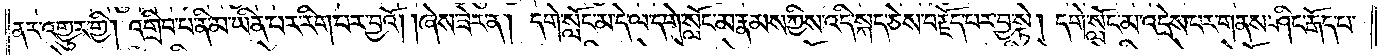ནར་འགྱུར་གྱི། འགྲིབ་པ་ནི་མ་ཡིན་པར་རིག་པར་བྱའོ། །ཞེས་ཟེར་ན། དགེ་སློང་མ་དེ་ལ་དགེ་སློང་མ་རྣམས་ཀྱིས་འདི་སྐད་ཅེས་བརྗོད་པར་བྱ་སྟེ། དགེ་སློང་མ་འདྲེས་པར་གནས་ཤིང་རྒོད་པ་
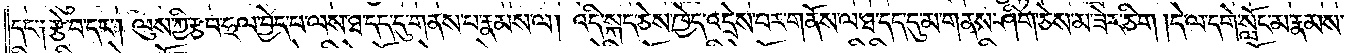དང་༑ རྩེ་བ་དང༌། ལུས་ཀྱི་རྩབ་ཧྲལ་བྱེད་པ་ལས་ཐ་དད་དུ་གནས་པ་རྣམས་ལ། འདི་སྐད་ཅེས་ཁྱེད་འདྲེས་པར་གནོས་ལ་ཐ་དད་དུ་མ་གནས་ཤིག་ཅེས་མ་ཟེར་ཅིག །དེ་ལ་དགེ་སློང་མ་རྣམས་
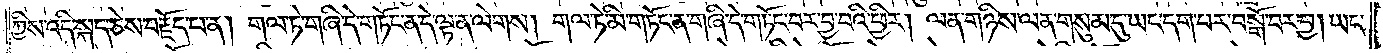ཀྱིས་འདི་སྐད་ཅེས་བརྗོད་པ་ན། གལ་ཏེ་གཞི་དེ་གཏོང་ན་དེ་ལྟ་ན་ལེགས། གལ་ཏེ་མི་གཏོང་ན་གཞི་དེ་གཏོང་བར་བྱ་བའི་ཕྱིར། ལན་གཉིས་ལན་གསུམ་དུ་ཡང་དག་པར་བསྒོ་བར་བྱ། ཡང་
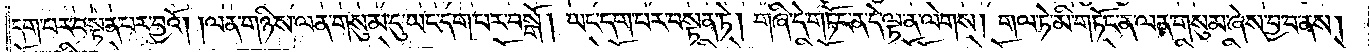དག་པར་བསྟན་པར་བྱའོ། །ལན་གཉིས་ལན་གསུམ་དུ་ཡང་དག་པར་བསྒོ། ཡང་དག་པར་བསྟན་ཏེ། གཞི་དེ་གཏོང་ན་དེ་ལྟ་ན་ལེགས། གལ་ཏེ་མི་གཏོང་ན་ལན་གསུམ་ཞེས་བྱ་བ་ནས།
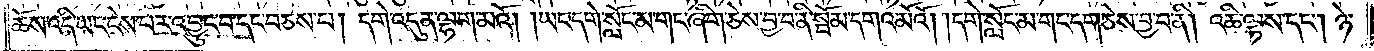ཆོས་འདི་ཡང་ངེས་པར་འབྱུང་བ་དང་བཅས་པ། དགེ་འདུན་ལྷག་མའོ། །ཡང་དགེ་སློང་མ་གང་ཞིག་ཅེས་བྱ་བ་ནི་སྡོམ་དགའ་མོའོ། །དགེ་སློང་མ་གང་དག་ཅེས་བྱ་བ་ནི། འཆི་ལྟས་དང༌། ཉེ་
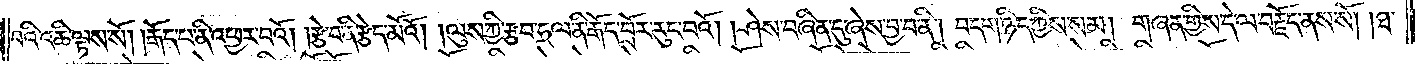བའི་འཆི་ལྟས་སོ། །རྒོད་པ་ནི་འཕྱར་བའོ། །རྩེ་བ་ནི་རྩེད་མོའོ། །ལུས་ཀྱི་རྩབ་ཧྲལ་ནི་རྒོད་བྲོར་རུང་བའོ། །ཤེས་བཞིན་དུ་ཞེས་བྱ་བ་ནི། བདག་ཉིད་ཀྱིས་སམ། གཞན་གྱིས་དེ་ལ་བརྗོད་ནས་སོ། །ཐ་
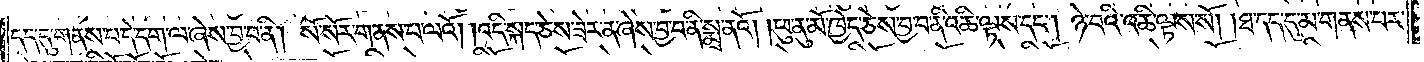དད་དུ་གནས་པ་དེ་དག་ལ་ཞེས་བྱ་བ་ནི། སོ་སོར་གནས་པ་ལའོ། །འདི་སྐད་ཅེས་ཟེར་ན་ཞེས་བྱ་བ་ནི་སྨྲ་ནའོ། །ཕུ་ནུ་མོ་ཁྱེད་ཅེས་བྱ་བ་ནི་འཆི་ལྟས་དང༌། ཉེ་བའི་འཆི་ལྟས་སོ། །ཐ་དད་དུ་མ་གནས་པར་
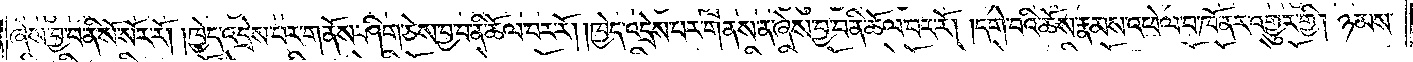ཞེས་བྱ་བ་ནི་སོ་སོར་རོ། །ཁྱེད་འདྲེས་པར་གནོས་ཤིག་ཅེས་བྱ་བ་ནི་ཆོལ་བར་རོ། །ཁྱེད་འདྲེས་པར་གནས་ན་ཞེས་བྱ་བ་ནི་ཆོལ་བར་རོ། །དགེ་བའི་ཆོས་རྣམས་འཕེལ་བ་ཁོ་ནར་འགྱུར་གྱི། ཉམས་
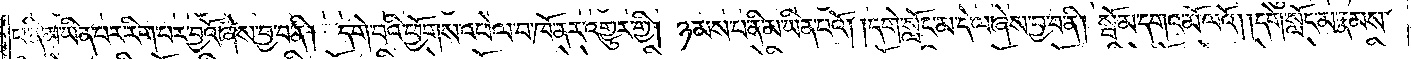པ་ནི་མ་ཡིན་པར་རིག་པར་བྱའོ་ཞེས་བྱ་བ་ནི། དགེ་བའི་ཕྱོགས་འཕེལ་བ་ཁོ་ནར་འགྱུར་གྱི། ཉམས་པ་ནི་མ་ཡིན་པའོ། །དགེ་སློང་མ་དེ་ལ་ཞེས་བྱ་བ་ནི། སྦོམ་དགའ་མོ་ལའོ། །དགེ་སློང་མ་རྣམས་
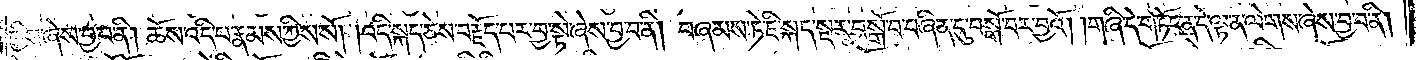ཀྱིས་ཞེས་བྱ་བ་ནི། ཆོས་འདི་པ་རྣམས་ཀྱིས་སོ། །འདི་སྐད་ཅེས་བརྗོད་པར་བྱ་སྟེ་ཞེས་བྱ་བ་ནི། བཞམས་ཏེ་ཇི་སྐད་སྔར་བསྒོ་བ་བཞིན་དུ་བསྒོ་བར་བྱའོ། །གཞི་དེ་གཏོང་ན་དེ་ལྟ་ན་ལེགས་ཞེས་བྱ་བ་ནི།
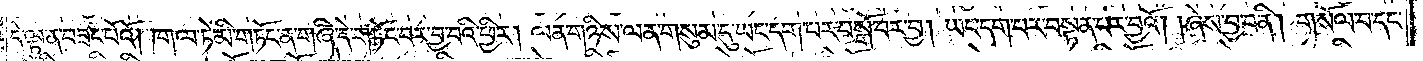དེ་ལྟ་ན་བཟང་པོའོ། །གལ་ཏེ་མི་གཏོང་ན་གཞི་དེ་གཏོང་བར་བྱ་བའི་ཕྱིར། ལན་གཉིས་ལན་གསུམ་དུ་ཡང་དག་པར་བསྒོ་བར་བྱ། ཡང་དག་པར་བསྟན་པར་བྱའོ། །ཞེས་བྱ་བ་ནི། གསོལ་བ་དང་
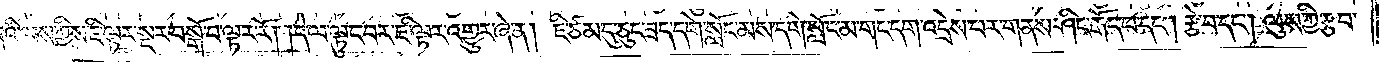བཞིའི་ལས་ཀྱིས་ཇི་ལྟར་སྔར་བསྒོ་བ་ལྟར་རོ། །དེ་ལ་ལྟུང་བར་ཇི་ལྟར་འགྱུར་ཞེ་ན། ཇི་ཙམ་དུ་ཅུང་ཟད་དགེ་སློང་མས་དགེ་སློང་མ་གང་དག་འདྲེས་པར་གནས་ཤིང་རྒོད་པ་དང༌། རྩེ་བ་དང༌། ལུས་ཀྱི་རྩབ་
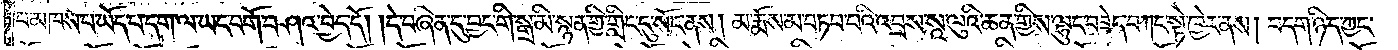པ་མཁས་པ་ཡོད་པ་དག་ལ་ཡང་བགོ་བཤའ་བྱེད་དོ། །དེ་བཞིན་དུ་བྱང་གི་སྒྲ་མི་སྙན་གྱི་གླིང་དུ་སོང་ནས། མ་རྨོས་མ་བཏབ་པའི་འབྲས་སཱ་ལུའི་ཆན་གྱིས་ལྷུང་བཟེད་བཀང་སྟེ་ཁྱེར་ནས། བདག་ཉིད་ཀྱང་
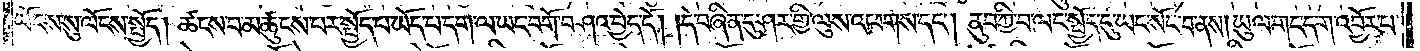ཡོངས་སུ་ལོངས་སྤྱོད། ཚངས་པ་མཚུངས་པར་སྤྱོད་པ་ཡོད་པ་དག་ལ་ཡང་བགོ་བཤའ་བྱེད་དོ། །དེ་བཞིན་དུ་ཤར་གྱི་ལུས་འཕགས་དང༌། ནུབ་ཀྱི་བ་ལང་སྤྱོད་དུ་ཡང་སོང་བ་ནས། ཡུལ་གང་དག་འབྱོར་པ་
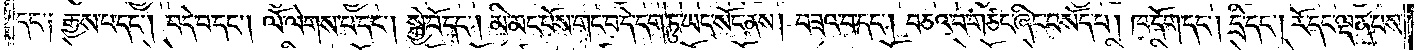དང་༑ རྒྱས་པ་དང༌། བདེ་བ་དང༌། ལོ་ལེགས་པ་དང༌། སྐྱེ་བོ་དང༌། མི་མང་པོས་གང་བ་དེ་དག་ཏུ་ཡང་སོང་ནས། བཟའ་བ་དང༌། བཅའ་བ་གཙང་ཞིང་བསོད་པ། ཁ་དོག་དང༌། དྲི་དང༌། རོ་དང་ལྡན་པས་
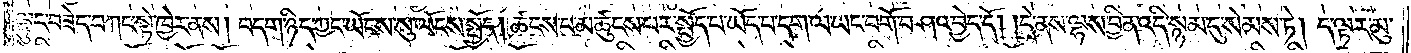ལྷུང་བཟེད་བཀང་སྟེ་ཁྱེར་ནས། བདག་ཉིད་ཀྱང་ཡོངས་སུ་ལོངས་སྤྱོད། ཚངས་པ་མཚུངས་པར་སྤྱོད་པ་ཡོད་པ་དག་ལ་ཡང་བགོ་བཤའ་བྱེད་དོ། །དེ་ནས་ལྷས་བྱིན་འདི་སྙམ་དུ་སེམས་ཏེ། དེ་ལྟར་མུ་
